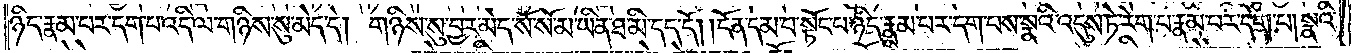ཉིད་རྣམ་པར་དག་པ་འདི་ལ་གཉིས་སུ་མེད་དེ། གཉིས་སུ་བྱར་མེད་སོ་སོ་མ་ཡིན་ཐ་མི་དད་དོ། །དོན་དམ་པ་སྟོང་པ་ཉིད་རྣམ་པར་དག་པས་སྣའི་འདུས་ཏེ་རེག་པ་རྣམ་པར་དག་པ། སྣའི་
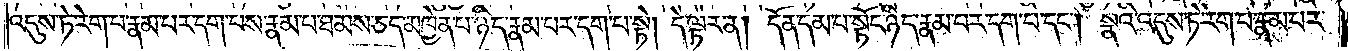འདུས་ཏེ་རེག་པ་རྣམ་པར་དག་པས་རྣམ་པ་ཐམས་ཅད་མཁྱེན་པ་ཉིད་རྣམ་པར་དག་པ་སྟེ། དེ་ལྟར་ན། དོན་དམ་པ་སྟོང་པ་ཉིད་རྣམ་པར་དག་པ་དང༌། སྣའི་འདུས་ཏེ་རེག་པ་རྣམ་པར་
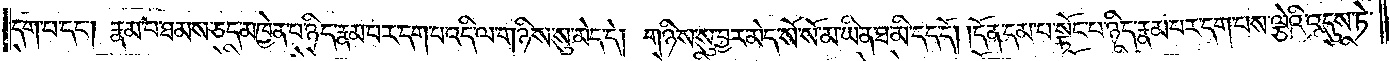དག་པ་དང༌། རྣམ་པ་ཐམས་ཅད་མཁྱེན་པ་ཉིད་རྣམ་པར་དག་པ་འདི་ལ་གཉིས་སུ་མེད་དེ། གཉིས་སུ་བྱར་མེད་སོ་སོ་མ་ཡིན་ཐ་མི་དད་དོ། །དོན་དམ་པ་སྟོང་པ་ཉིད་རྣམ་པར་དག་པས་ལྕེའི་འདུས་ཏེ་
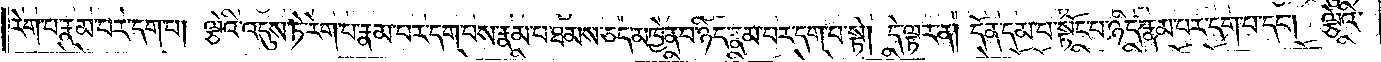རེག་པ་རྣམ་པར་དག་པ། ལྕེའི་འདུས་ཏེ་རེག་པ་རྣམ་པར་དག་པས་རྣམ་པ་ཐམས་ཅད་མཁྱེན་པ་ཉིད་རྣམ་པར་དག་པ་སྟེ། དེ་ལྟར་ན། དོན་དམ་པ་སྟོང་པ་ཉིད་རྣམ་པར་དག་པ་དང༌། ལྕེའི་
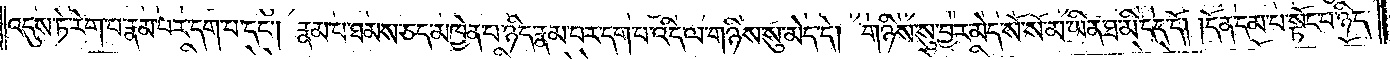འདུས་ཏེ་རེག་པ་རྣམ་པར་དག་པ་དང༌། རྣམ་པ་ཐམས་ཅད་མཁྱེན་པ་ཉིད་རྣམ་པར་དག་པ་འདི་ལ་གཉིས་སུ་མེད་དེ། གཉིས་སུ་བྱར་མེད་སོ་སོ་མ་ཡིན་ཐ་མི་དད་དོ། །དོན་དམ་པ་སྟོང་པ་ཉིད་
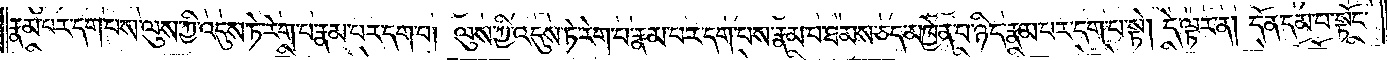རྣམ་པར་དག་པས་ལུས་ཀྱི་འདུས་ཏེ་རེག་པ་རྣམ་པར་དག་པ། ལུས་ཀྱི་འདུས་ཏེ་རེག་པ་རྣམ་པར་དག་པས་རྣམ་པ་ཐམས་ཅད་མཁྱེན་པ་ཉིད་རྣམ་པར་དག་པ་སྟེ། དེ་ལྟར་ན། དོན་དམ་པ་སྟོང་
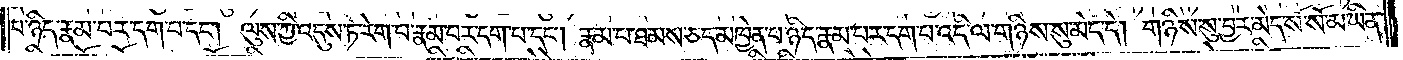པ་ཉིད་རྣམ་པར་དག་པ་དང༌། ལུས་ཀྱི་འདུས་ཏེ་རེག་པ་རྣམ་པར་དག་པ་དང༌། རྣམ་པ་ཐམས་ཅད་མཁྱེན་པ་ཉིད་རྣམ་པར་དག་པ་འདི་ལ་གཉིས་སུ་མེད་དེ། གཉིས་སུ་བྱར་མེད་སོ་སོ་མ་ཡིན་
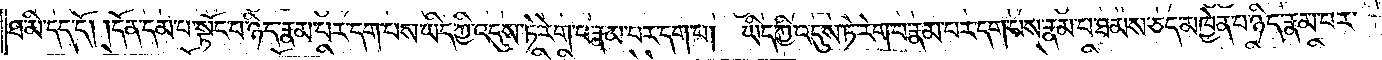ཐ་མི་དད་དོ། །དོན་དམ་པ་སྟོང་པ་ཉིད་རྣམ་པར་དག་པས་ཡིད་ཀྱི་འདུས་ཏེ་རེག་པ་རྣམ་པར་དག་པ། ཡིད་ཀྱི་འདུས་ཏེ་རེག་པ་རྣམ་པར་དག་པས་རྣམ་པ་ཐམས་ཅད་མཁྱེན་པ་ཉིད་རྣམ་པར་
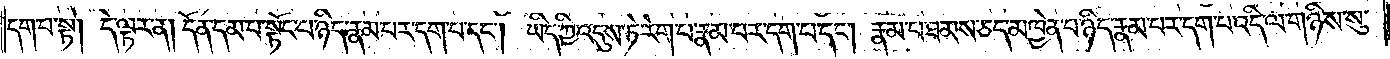དག་པ་སྟེ། དེ་ལྟར་ན། དོན་དམ་པ་སྟོང་པ་ཉིད་རྣམ་པར་དག་པ་དང༌། ཡིད་ཀྱི་འདུས་ཏེ་རེག་པ་རྣམ་པར་དག་པ་དང༌། རྣམ་པ་ཐམས་ཅད་མཁྱེན་པ་ཉིད་རྣམ་པར་དག་པ་འདི་ལ་གཉིས་སུ་
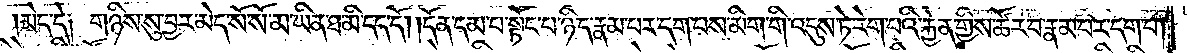མེད་དེ། གཉིས་སུ་བྱར་མེད་སོ་སོ་མ་ཡིན་ཐ་མི་དད་དོ། །དོན་དམ་པ་སྟོང་པ་ཉིད་རྣམ་པར་དག་པས་མིག་གི་འདུས་ཏེ་རེག་པའི་རྐྱེན་གྱིས་ཚོར་བ་རྣམ་པར་དག་པ།
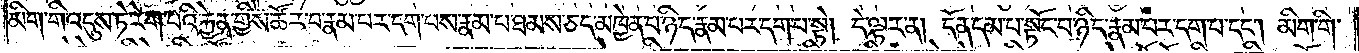མིག་གི་འདུས་ཏེ་རེག་པའི་རྐྱེན་གྱིས་ཚོར་བ་རྣམ་པར་དག་པས་རྣམ་པ་ཐམས་ཅད་མཁྱེན་པ་ཉིད་རྣམ་པར་དག་པ་སྟེ། དེ་ལྟར་ན། དོན་དམ་པ་སྟོང་པ་ཉིད་རྣམ་པར་དག་པ་དང༌། མིག་གི་
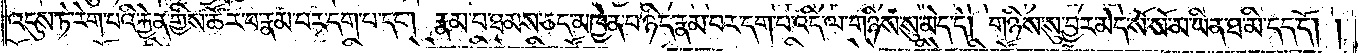འདུས་ཏེ་རེག་པའི་རྐྱེན་གྱིས་ཚོར་བ་རྣམ་པར་དག་པ་དང༌། རྣམ་པ་ཐམས་ཅད་མཁྱེན་པ་ཉིད་རྣམ་པར་དག་པ་འདི་ལ་གཉིས་སུ་མེད་དེ། གཉིས་སུ་བྱར་མེད་སོ་སོ་མ་ཡིན་ཐ་མི་དད་དོ། །
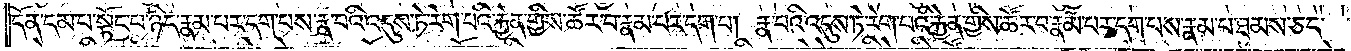དོན་དམ་པ་སྟོང་པ་ཉིད་རྣམ་པར་དག་པས་རྣ་བའི་འདུས་ཏེ་རེག་པའི་རྐྱེན་གྱིས་ཚོར་བ་རྣམ་པར་དག་པ། རྣ་བའི་འདུས་ཏེ་རེག་པའི་རྐྱེན་གྱིས་ཚོར་བ་རྣམ་པར་དག་པས་རྣམ་པ་ཐམས་ཅད་
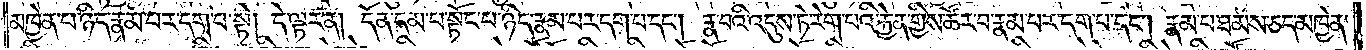མཁྱེན་པ་ཉིད་རྣམ་པར་དག་པ་སྟེ། དེ་ལྟར་ན། དོན་དམ་པ་སྟོང་པ་ཉིད་རྣམ་པར་དག་པ་དང༌། རྣ་བའི་འདུས་ཏེ་རེག་པའི་རྐྱེན་གྱིས་ཚོར་བ་རྣམ་པར་དག་པ་དང༌། རྣམ་པ་ཐམས་ཅད་མཁྱེན་
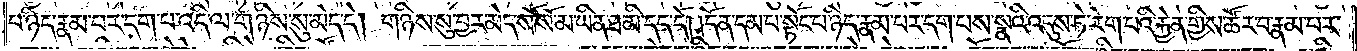པ་ཉིད་རྣམ་པར་དག་པ་འདི་ལ་གཉིས་སུ་མེད་དེ། གཉིས་སུ་བྱར་མེད་སོ་སོ་མ་ཡིན་ཐ་མི་དད་དོ། །དོན་དམ་པ་སྟོང་པ་ཉིད་རྣམ་པར་དག་པས་སྣའི་འདུས་ཏེ་རེག་པའི་རྐྱེན་གྱིས་ཚོར་བ་རྣམ་པར་
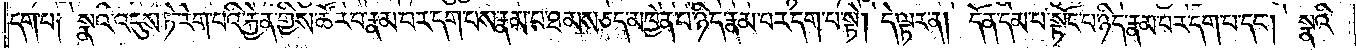དག་པ། སྣའི་འདུས་ཏེ་རེག་པའི་རྐྱེན་གྱིས་ཚོར་བ་རྣམ་པར་དག་པས་རྣམ་པ་ཐམས་ཅད་མཁྱེན་པ་ཉིད་རྣམ་པར་དག་པ་སྟེ། དེ་ལྟར་ན། དོན་དམ་པ་སྟོང་པ་ཉིད་རྣམ་པར་དག་པ་དང༌། སྣའི་
